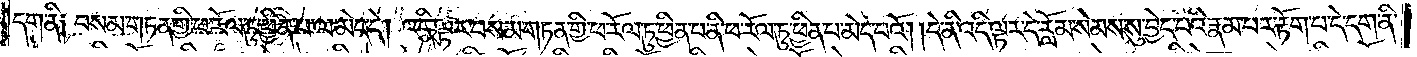དག་ནི། བསམ་གཏན་གྱི་ཕ་རོལ་ཏུ་ཕྱིན་པ་ལ་མེད་དེ། འདི་ལྟར་བསམ་གཏན་གྱི་ཕ་རོལ་ཏུ་ཕྱིན་པ་ནི་ཕ་རོལ་ཏུ་ཕྱིན་པ་མེད་པའོ། །དེ་ནི་འདི་ལྟར་དེ་རློམ་སེམས་སུ་བྱེད་པའི་རྣམ་པར་རྟོག་པ་དེ་དག་ནི་
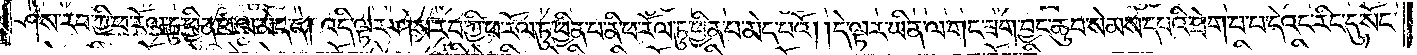ཤེས་རབ་ཀྱི་ཕ་རོལ་ཏུ་ཕྱིན་པ་ལ་མེད་དེ། འདི་ལྟར་ཤེས་རབ་ཀྱི་ཕ་རོལ་ཏུ་ཕྱིན་པ་ནི་ཕ་རོལ་ཏུ་ཕྱིན་པ་མེད་པའོ། དེ་ལྟར་ཡིན་ལ་གང་ཟག་བྱང་ཆུབ་སེམས་དཔའི་ཐེག་པ་པ་དེའང་རིང་དུ་སོང་
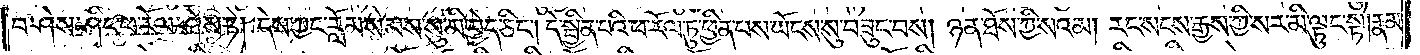བ་ཤེས་ཤིང་ཕ་རོལ་ཤེས་ཏེ། དེས་ཀྱང་རློམ་སེམས་སུ་མི་བྱེད་ཅིང༌། དེ་སྦྱིན་པའི་ཕ་རོལ་ཏུ་ཕྱིན་པས་ཡོངས་སུ་བཟུང་བས། ཉན་ཐོས་ཀྱི་སའམ། རང་སངས་རྒྱས་ཀྱི་སར་མི་ལྟུང་སྟེ། རྣམ་
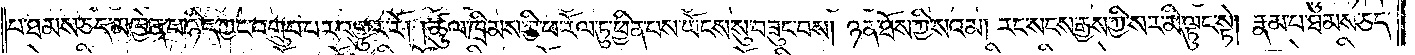པ་ཐམས་ཅད་མཁྱེན་པ་ཉིད་ཀྱང་འགྲུབ་པར་འགྱུར་རོ། །ཚུལ་ཁྲིམས་ཀྱི་ཕ་རོལ་ཏུ་ཕྱིན་པས་ཡོངས་སུ་བཟུང་བས། ཉན་ཐོས་ཀྱི་སའམ། རང་སངས་རྒྱས་ཀྱི་སར་མི་ལྟུང་སྟེ། རྣམ་པ་ཐམས་ཅད་
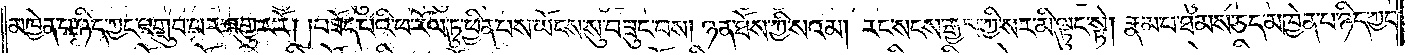མཁྱེན་པ་ཉིད་ཀྱང་འགྲུབ་པར་འགྱུར་རོ། །བཟོད་པའི་ཕ་རོལ་ཏུ་ཕྱིན་པས་ཡོངས་སུ་བཟུང་བས། ཉན་ཐོས་ཀྱི་སའམ། རང་སངས་རྒྱས་ཀྱི་སར་མི་ལྟུང་སྟེ། རྣམ་པ་ཐམས་ཅད་མཁྱེན་པ་ཉིད་ཀྱང་
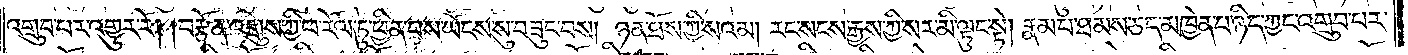འགྲུབ་པར་འགྱུར་རོ། །བརྩོན་འགྲུས་ཀྱི་ཕ་རོལ་ཏུ་ཕྱིན་པས་ཡོངས་སུ་བཟུང་བས། ཉན་ཐོས་ཀྱི་སའམ། རང་སངས་རྒྱས་ཀྱི་སར་མི་ལྟུང་སྟེ། རྣམ་པ་ཐམས་ཅད་མཁྱེན་པ་ཉིད་ཀྱང་འགྲུབ་པར་
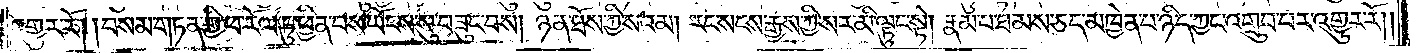འགྱུར་རོ། །བསམ་གཏན་གྱི་ཕ་རོལ་ཏུ་ཕྱིན་པས་ཡོངས་སུ་བཟུང་བས། ཉན་ཐོས་ཀྱི་སའམ། རང་སངས་རྒྱས་ཀྱི་སར་མི་ལྟུང་སྟེ། རྣམ་པ་ཐམས་ཅད་མཁྱེན་པ་ཉིད་ཀྱང་འགྲུབ་པར་འགྱུར་རོ། །
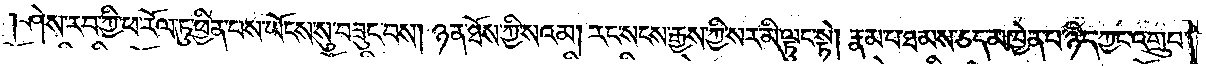ཤེས་རབ་ཀྱི་ཕ་རོལ་ཏུ་ཕྱིན་པས་ཡོངས་སུ་བཟུང་བས། ཉན་ཐོས་ཀྱི་སའམ། རང་སངས་རྒྱས་ཀྱི་སར་མི་ལྟུང་སྟེ། རྣམ་པ་ཐམས་ཅད་མཁྱེན་པ་ཉིད་ཀྱང་འགྲུབ་
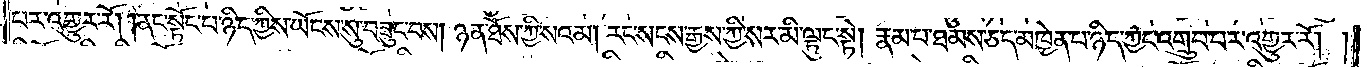པར་འགྱུར་རོ། །ནང་སྟོང་པ་ཉིད་ཀྱིས་ཡོངས་སུ་བཟུང་བས། ཉན་ཐོས་ཀྱི་སའམ། རང་སངས་རྒྱས་ཀྱི་སར་མི་ལྟུང་སྟེ། རྣམ་པ་ཐམས་ཅད་མཁྱེན་པ་ཉིད་ཀྱང་འགྲུབ་པར་འགྱུར་རོ། །
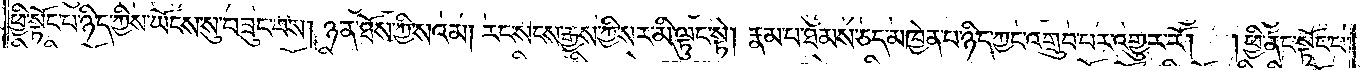ཕྱི་སྟོང་པ་ཉིད་ཀྱིས་ཡོངས་སུ་བཟུང་བས། ཉན་ཐོས་ཀྱི་སའམ། རང་སངས་རྒྱས་ཀྱི་སར་མི་ལྟུང་སྟེ། རྣམ་པ་ཐམས་ཅད་མཁྱེན་པ་ཉིད་ཀྱང་འགྲུབ་པར་འགྱུར་རོ། །ཕྱི་ནང་སྟོང་པ་
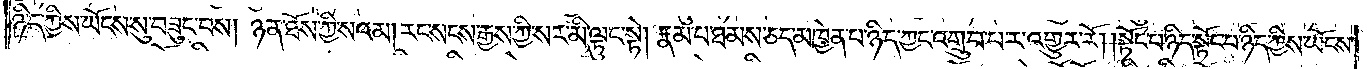ཉིད་ཀྱིས་ཡོངས་སུ་བཟུང་བས། ཉན་ཐོས་ཀྱི་སའམ། རང་སངས་རྒྱས་ཀྱི་སར་མི་ལྟུང་སྟེ། རྣམ་པ་ཐམས་ཅད་མཁྱེན་པ་ཉིད་ཀྱང་འགྲུབ་པར་འགྱུར་རོ། །སྟོང་པ་ཉིད་སྟོང་པ་ཉིད་ཀྱིས་ཡོངས་
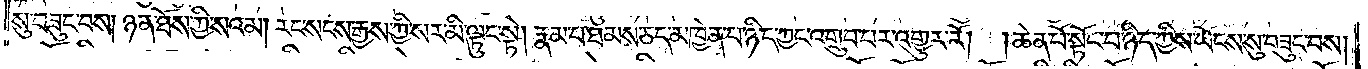སུ་བཟུང་བས། ཉན་ཐོས་ཀྱི་སའམ། རང་སངས་རྒྱས་ཀྱི་སར་མི་ལྟུང་སྟེ། རྣམ་པ་ཐམས་ཅད་མཁྱེན་པ་ཉིད་ཀྱང་འགྲུབ་པར་འགྱུར་རོ། །ཆེན་པོ་སྟོང་པ་ཉིད་ཀྱིས་ཡོངས་སུ་བཟུང་བས།
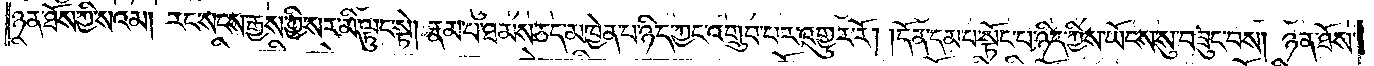ཉན་ཐོས་ཀྱི་སའམ། རང་སངས་རྒྱས་ཀྱི་སར་མི་ལྟུང་སྟེ། རྣམ་པ་ཐམས་ཅད་མཁྱེན་པ་ཉིད་ཀྱང་འགྲུབ་པར་འགྱུར་རོ། །དོན་དམ་པ་སྟོང་པ་ཉིད་ཀྱིས་ཡོངས་སུ་བཟུང་བས། ཉན་ཐོས་
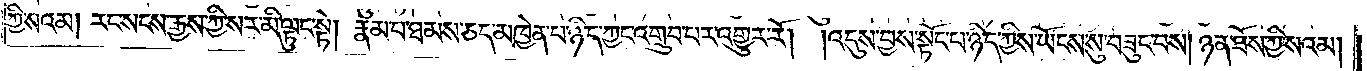ཀྱི་སའམ། རང་སངས་རྒྱས་ཀྱི་སར་མི་ལྟུང་སྟེ། རྣམ་པ་ཐམས་ཅད་མཁྱེན་པ་ཉིད་ཀྱང་འགྲུབ་པར་འགྱུར་རོ། །འདུས་བྱས་སྟོང་པ་ཉིད་ཀྱིས་ཡོངས་སུ་བཟུང་བས། ཉན་ཐོས་ཀྱི་སའམ།
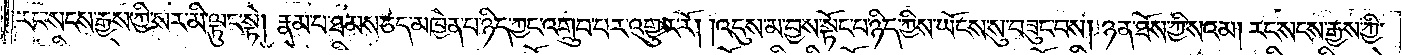རང་སངས་རྒྱས་ཀྱི་སར་མི་ལྟུང་སྟེ། རྣམ་པ་ཐམས་ཅད་མཁྱེན་པ་ཉིད་ཀྱང་འགྲུབ་པར་འགྱུར་རོ། །འདུས་མ་བྱས་སྟོང་པ་ཉིད་ཀྱིས་ཡོངས་སུ་བཟུང་བས། ཉན་ཐོས་ཀྱི་སའམ། རང་སངས་རྒྱས་ཀྱི་
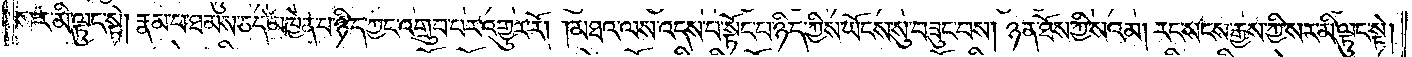སར་མི་ལྟུང་སྟེ། རྣམ་པ་ཐམས་ཅད་མཁྱེན་པ་ཉིད་ཀྱང་འགྲུབ་པར་འགྱུར་རོ། །མཐའ་ལས་འདས་པ་སྟོང་པ་ཉིད་ཀྱིས་ཡོངས་སུ་བཟུང་བས། ཉན་ཐོས་ཀྱི་སའམ། རང་སངས་རྒྱས་ཀྱི་སར་མི་ལྟུང་སྟེ།
